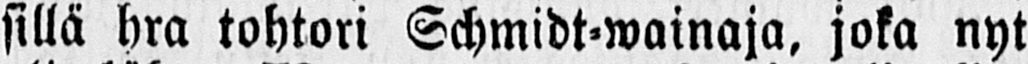sillä hra tohtori Schmidt-wainaja, joka nyt
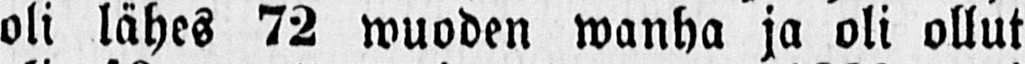oli lähes 72 wuoden wanha ja oli ollut
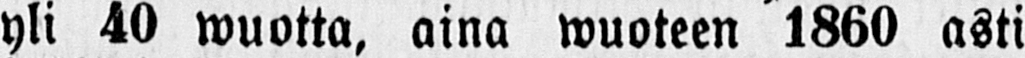yli 40 wuotta, aina wuoteen 1860 asti
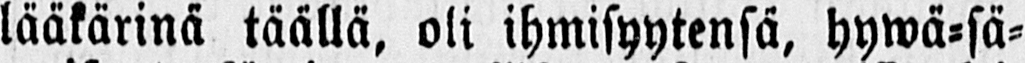lääkärinä täällä, oli ihmisyytensä, hywä-sä-
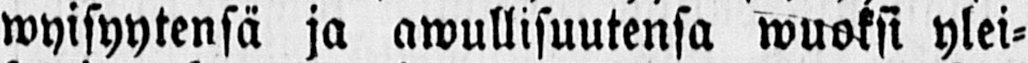wyisyytensä ja awullisuutensa wuoksi ylei-
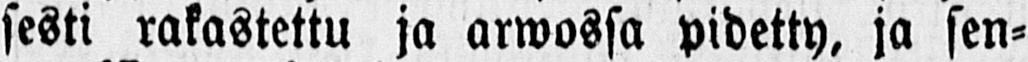sesti rakastettu ja arwossa pidetty, ja sen-
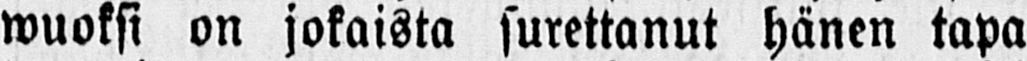wuoksi on jokaista surettanut hänen tapa
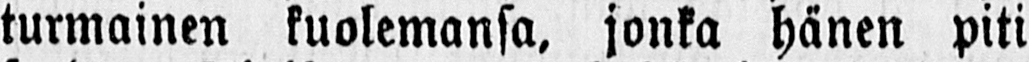turmainen kuolemansa, jonka hänen piti
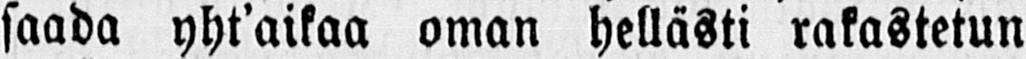saada yht'aikaa oman hellästi rakastetun
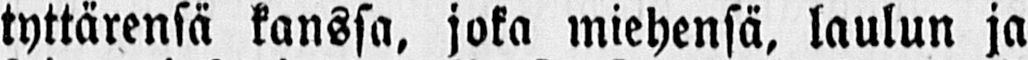tyttärensä kanssa, joka miehensä, laulun ja
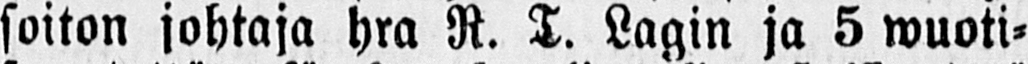soiton johtaja hra R. T. Lagin ja 5 wuoti-
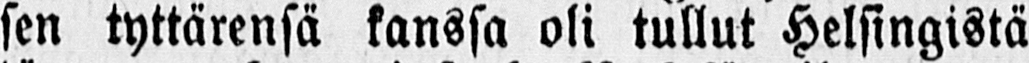sen tyttärensä kanssa oli tullut Helsingistä
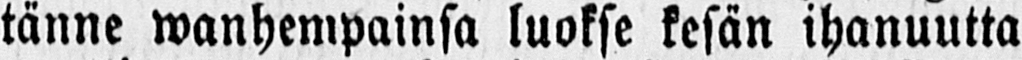tänne wanhempainsa luokse kesän ihanuutta
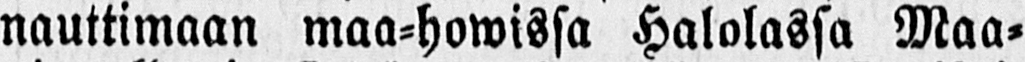nauttimaan maa-howissa Halolassa Maa-
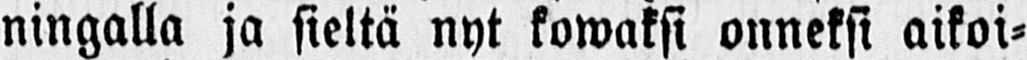ningalla ja sieltä nyt kowaksi onneksi aikoi-
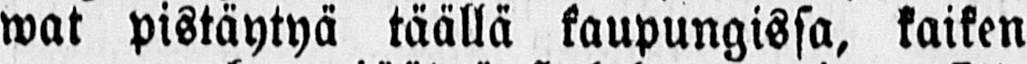wat pistäytyä täällä kaupungissa, kaiken
